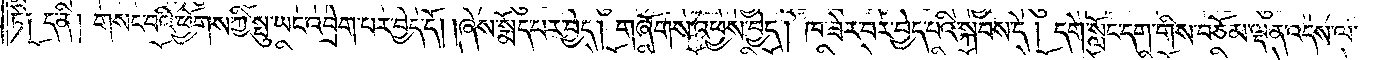ཏེ༑ ད་ནི། གསང་བའི་ཕྱོགས་ཀྱི་སྤུ་ཡང་འབྲེག་པར་བྱེད་དོ། །ཞེས་སྨོད་པར་བྱེད། གཞོགས་འཕྱས་བྱེད། ཁ་ཟེར་བར་བྱེད་པའི་སྐབས་དེ། དགེ་སློང་དག་གིས་བཅོམ་ལྡན་འདས་ལ་
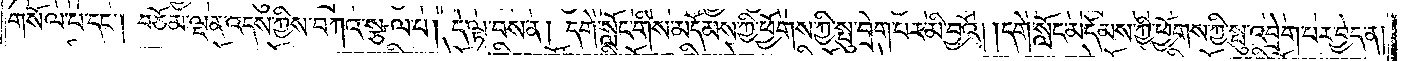གསོལ་པ་དང༌། བཅོམ་ལྡན་འདས་ཀྱིས་བཀའ་སྩལ་པ། དེ་ལྟ་བས་ན། དགེ་སློང་གིས་མདོམས་ཀྱི་ཕྱོགས་ཀྱི་སྤུ་བྲེག་པར་མི་བྱའོ། །དགེ་སློང་མདོམས་ཀྱི་ཕྱོགས་ཀྱི་སྤུ་འབྲེག་པར་བྱེད་ན།
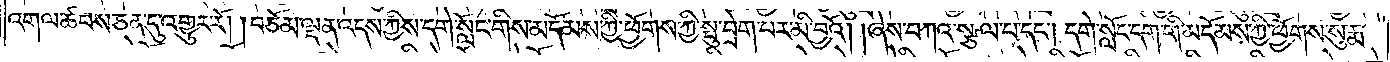འགལ་ཚབས་ཅན་དུ་འགྱུར་རོ། །བཅོམ་ལྡན་འདས་ཀྱིས་དགེ་སློང་གིས་མདོམས་ཀྱི་ཕྱོགས་ཀྱི་སྤུ་བྲེག་པར་མི་བྱའོ། །ཞེས་བཀའ་སྩལ་པ་དང༌། དགེ་སློང་དག་གི་མདོམས་ཀྱི་ཕྱོགས་སུ་རྨ་
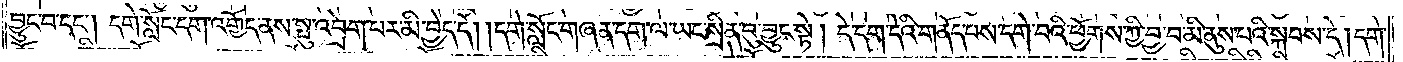བྱུང་བ་དང༌། དགེ་སློང་དག་འགྱོད་ནས་སྤུ་འབྲེག་པར་མི་བྱེད་དོ། །དགེ་སློང་གཞན་དག་ལ་ཡང་སྲིན་བུ་བྱུང་སྟེ། དེ་དག་དེའི་གནོད་པས་དགེ་བའི་ཕྱོགས་ཀྱི་བྱ་བ་མི་ནུས་པའི་སྐབས་དེ། དགེ་
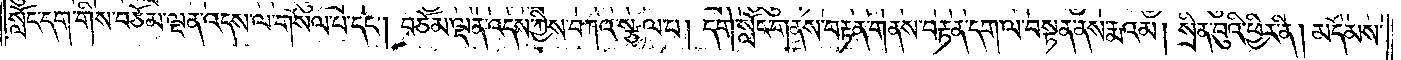སློང་དག་གིས་བཅོམ་ལྡན་འདས་ལ་གསོལ་པ་དང༌། བཅོམ་ལྡན་འདས་ཀྱིས་བཀའ་སྩལ་པ། དགེ་སློང་གནས་བརྟན་གནས་བརྟན་དག་ལ་བསྟན་ནས་རྨའམ། སྲིན་བུའི་ཕྱིར་ནི། མདོམས་
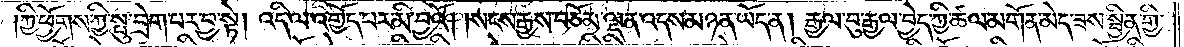ཀྱི་ཕྱོགས་ཀྱི་སྤུ་བྲེག་པར་བྱ་སྟེ། འདི་ལ་འགྱོད་པར་མི་བྱའོ། །སངས་རྒྱས་བཅོམ་ལྡན་འདས་མཉན་ཡོད་ན། རྒྱལ་བུ་རྒྱལ་བྱེད་ཀྱི་ཚལ་མགོན་མེད་ཟས་སྦྱིན་གྱི་
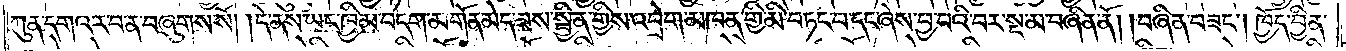ཀུན་དགའ་ར་བ་ན་བཞུགས་སོ། །དེ་ནས་ཡང་ཁྱིམ་བདག་མགོན་མེད་ཟས་སྦྱིན་གྱིས་འབྲེག་མཁན་གྱི་མི་བཏང་བ་དང་ཞེས་བྱ་བའི་བར་སྔ་མ་བཞིན་ནོ། །བཞིན་བཟང༌། ཁྱོད་བྱིན་
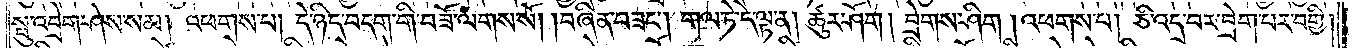སྤུ་འབྲེག་ཤེས་སམ། འཕགས་པ། དེ་ཉིད་བདག་གི་བཟོ་ལགས་སོ། །བཞིན་བཟང༌། གལ་ཏེ་དེ་ལྟ་ན། ཚུར་ཤོག། བྲེགས་ཤིག །འཕགས་པ། ཅི་འདྲ་བར་བྲེག་པར་བགྱི།
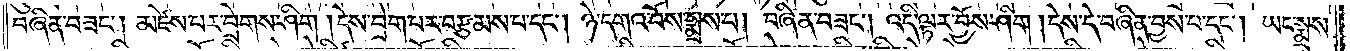བཞིན་བཟང༌། མཛེས་པར་བྲེགས་ཤིག །དེས་བྲེག་པར་བརྩམས་པ་དང༌། ཉེ་དགའ་བོས་སྨྲས་པ། བཞིན་བཟང༌། འདི་ལྟར་བྱོས་ཤིག །དེས་དེ་བཞིན་བྱས་པ་དང༌། ཡང་སྨྲས་
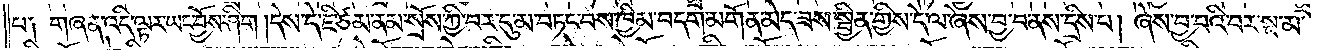པ༑ གཞན་འདི་ལྟར་ཡང་བྱོས་ཤིག །དེས་དེ་ཇི་ཙམ་ནམ་སྲོས་ཀྱི་བར་དུ་མ་བཏང་བས་ཁྱིམ་བདག་མགོན་མེད་ཟས་སྦྱིན་གྱིས་དེ་ལ་ཞེས་བྱ་བ་ནས་དྲིས་པ། ཞེས་བྱ་བའི་བར་སྔ་མ་
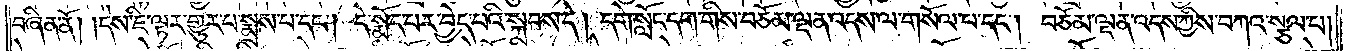བཞིན་ནོ། །དེས་ཇི་ལྟར་གྱུར་པ་སྨྲས་པ་དང༌། དེ་སྨོད་པར་བྱེད་པའི་སྐབས་དེ། དགེ་སློང་དག་གིས་བཅོམ་ལྡན་འདས་ལ་གསོལ་པ་དང༌། བཅོམ་ལྡན་འདས་ཀྱིས་བཀའ་སྩལ་པ།
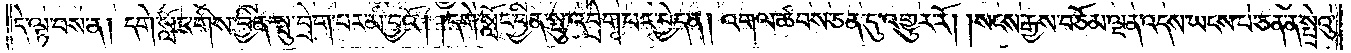དེ་ལྟ་བས་ན། དགེ་སློང་གིས་བྱིན་སྤུ་བྲེག་པར་མི་བྱའོ། །དགེ་སློང་བྱིན་སྤུ་འབྲེག་པར་བྱེད་ན། འགལ་ཚབས་ཅན་དུ་འགྱུར་རོ། །སངས་རྒྱས་བཅོམ་ལྡན་འདས་ཡངས་པ་ཅན་ན་སྤྲེའུ་
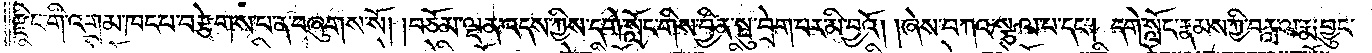རྫིང་གི་འགྲམ་ཁང་པ་བརྩེགས་པ་ན་བཞུགས་སོ། །བཅོམ་ལྡན་འདས་ཀྱིས་དགེ་སློང་གིས་བྱིན་སྤུ་བྲེག་པར་མི་བྱའོ། །ཞེས་བཀའ་སྩལ་པ་དང༌། དགེ་སློང་རྣམས་ཀྱི་བརླ་ལ་རྨ་བྱུང་
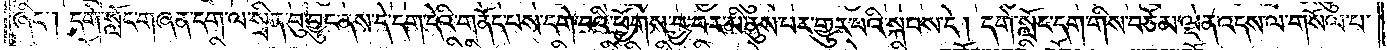ཞིང༌། དགེ་སློང་གཞན་དག་ལ་སྲིན་བུ་བྱུང་ནས་དེ་དག་དེའི་གནོད་པས་དགེ་བའི་ཕྱོགས་བྱ་བར་མི་ནུས་པར་གྱུར་པའི་སྐབས་དེ། དགེ་སློང་དག་གིས་བཅོམ་ལྡན་འདས་ལ་གསོལ་པ་
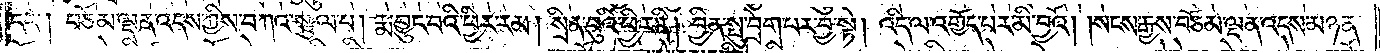དང༌། བཅོམ་ལྡན་འདས་ཀྱིས་བཀའ་སྩལ་པ། རྨ་བྱུང་བའི་ཕྱིར་རམ། སྲིན་བུའི་ཕྱིར་ནི། བྱིན་སྤུ་བྲེག་པར་བྱ་སྟེ། འདི་ལ་འགྱོད་པར་མི་བྱའོ། །སངས་རྒྱས་བཅོམ་ལྡན་འདས་མཉན་
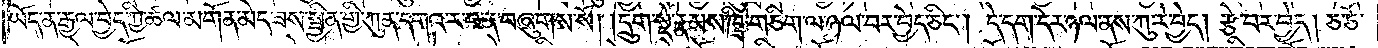ཡོད་ན་རྒྱལ་བྱེད་ཀྱི་ཚལ་མགོན་མེད་ཟས་སྦྱིན་གྱི་ཀུན་དགའ་ར་བ་ན་བཞུགས་སོ། །དྲུག་སྡེ་རྣམས་ཁྲི་གཅིག་ལ་ཉལ་བར་བྱེད་ཅིང༌། དེ་དག་དེར་ཉལ་ནས་ཀུ་རེ་བྱེད། རྩེ་བར་བྱེད། ཅ་ཅོ་
